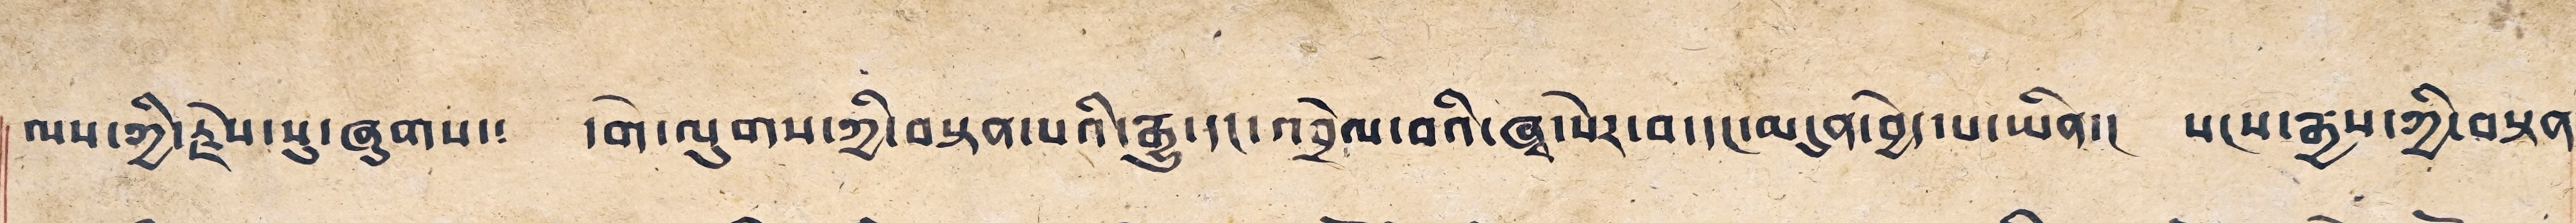ལས་ཀྱི་རྗེས་སུ་ཞུགས། དགེ་ལུགས་ཀྱི་བསྟན་པའི་རྒྱུ་དང་འབྲེལ་བའི་ཞྭ་སེར་བ་དང་མདུན་བྱེད་པ་ཡིན། སངས་རྒྱས་ཀྱི་བསྟན་
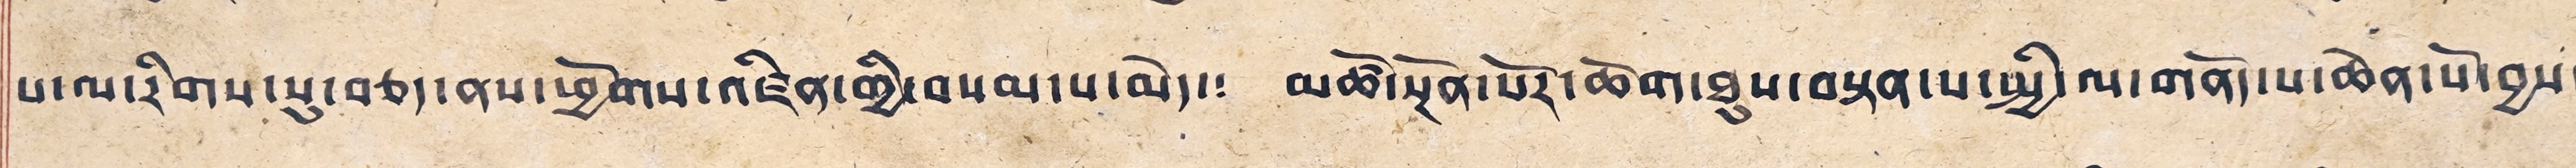པ་ལ་རིགས་སུ་བཅད་ནས་ཕྱོགས་འཛིན་གྱི་བསམ་པ་མེད། མཚོ་སྔོན་པོར་ཆོག་ཐུས་བསྟན་པ་སྤྱི་ལ་གནོད་པ་ཆེན་པོ་བྱས་
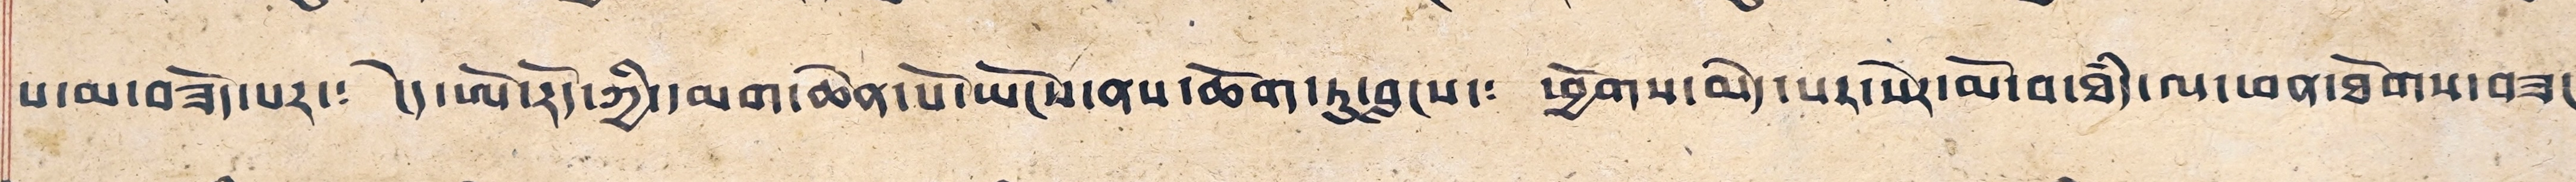པ་མ་བཟོད་པར། ངེད་ཨོ་རོད་ཀྱི་དམག་ཆེན་པོ་ཡོངས་ནས་ཆོག་ཏུ་བླངས། ཕྱོགས་མེད་པར་སེར་མོ་བ་ཐཾད་ལ་ཕན་ཐོགས་བཟང་
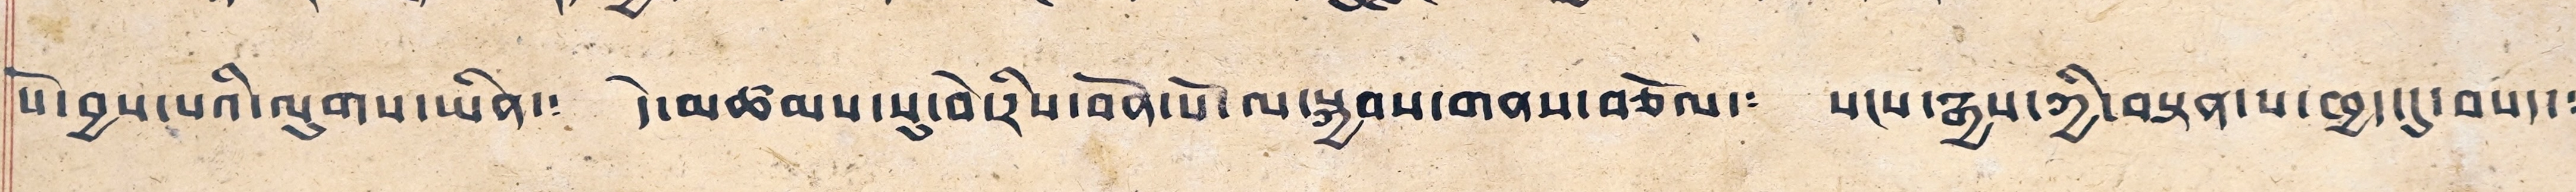པོ་བྱས་པའི་ལུགས་ཡིན་། དེ་མཚམས་སུ་བེ་རིས་བོན་པོ་ལ་སྐྱབས་གནས་བཅོལ། སངས་རྒྱས་ཀྱི་བསྟན་པ་ཁྱད་དུ་བསད་།
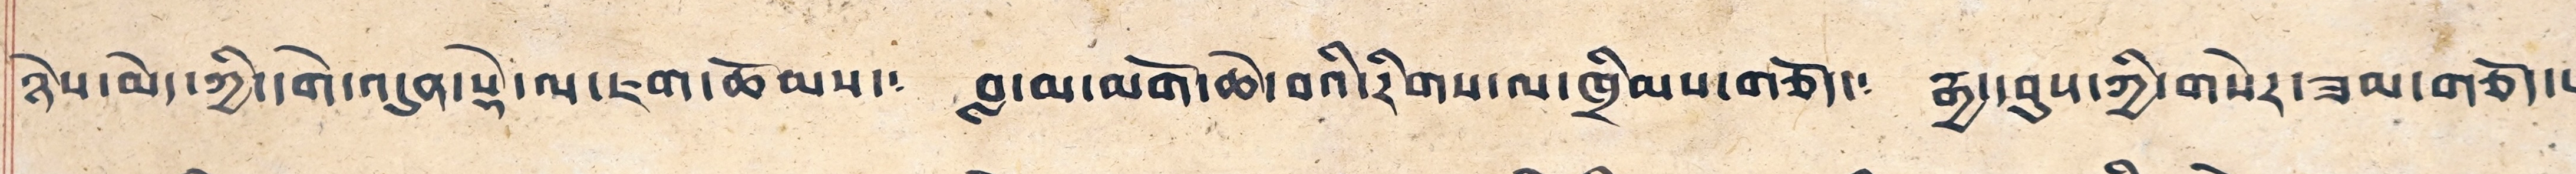ཉེས་མེད་ཀྱི་དགེ་འདུན་སྡེ་ལ་ཇག་ཆོམས་། བླ་མ་མགོ་ཆེ་བའི་རིགས་ལ་ཁྲིམས་གཅོད་། རྒྱ་བུས་ཀྱི་གསེར་ཟམ་གཅོད་པ་
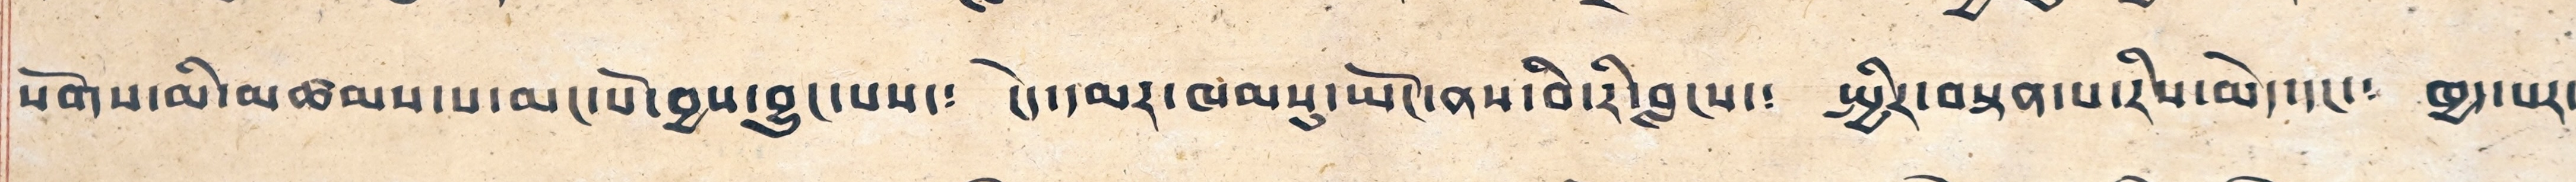སོགས་མི་མཚམས་པ་མང་པོ་བྱས་བྱུང་པས། ངེད་དམར་ཁམསུ་ཡོང་ནས་བི་རི་བླངས། སྤྱིར་བསྟན་པ་རིས་མེད་དང་། ཁྱད་པར་
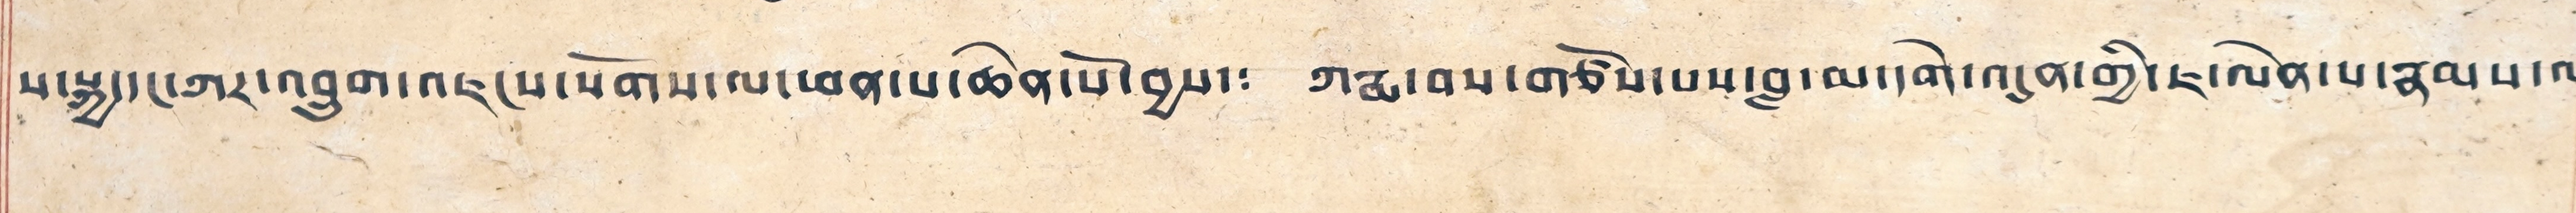ས་སྐྱ་དང་ཀར་འབྲུག་འཇངས་སོགས་ལ་ཕན་པ་ཆེན་པོ་བྱས་། ཀརྨ་བས་གཙོས་པས་བླ་མ་དགེ་འདུན་གྱི་ཇ་ལེན་པ་རྣམས་ལ་
